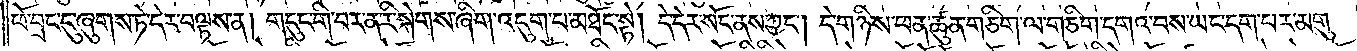ཕོ་བྲང་དུ་ཞུགས་ཏེ་དེར་བལྟས་ན། གདུང་གི་བར་ན་རི་སྐེགས་ཞིག་འདུག་པ་མཐོང་སྟེ། དེ་དེར་སོང་ནས་ཀྱང༌། དེ་གཉིས་ཕན་ཚུན་གཅིག་ལ་གཅིག་དགའ་བས་ཡང་དག་པར་མགུ་
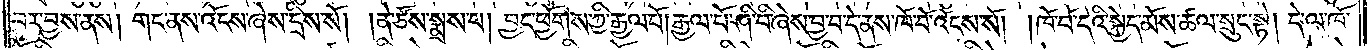བར་བྱས་ནས། གང་ནས་འོངས་ཞེས་དྲིས་སོ། །ནེ་ཙོས་སྨྲས་པ། བྱང་ཕྱོགས་ཀྱི་རྒྱལ་པོ། རྒྱལ་པོ་ཤི་བི་ཞེས་བྱ་བ་དེ་ནས་ཁོ་བོ་འོངས་སོ། །ཁོ་བོ་དེའི་སྐྱེད་མོས་ཚལ་སྲུང་སྟེ། དེ་ལ་ཁོ་
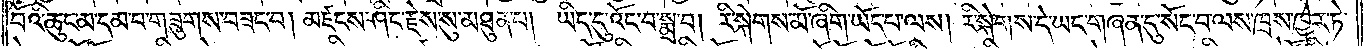བོའི་ཆུང་མ་དམ་པ་གཟུགས་བཟང་བ། མཛངས་ཤིང་རྗེས་སུ་མཐུན་པ། ཡིད་དུ་འོང་བ་སྨྲ་བ། རི་སྐེགས་མོ་ཞིག་ཡོད་པ་ལས། རི་སྐེགས་དེ་ཡང་གཞན་དུ་སོང་བ་ལས་ཁྲས་ཁྱེར་ཏེ་
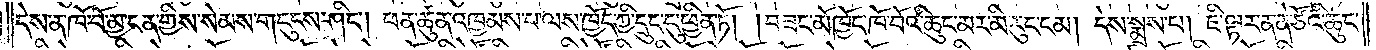དེས་ན་ཁོ་བོ་མྱ་ངན་གྱིས་སེམས་གདུངས་ཤིང༌། ཕན་ཚུན་འཁྱམས་པ་ལས་ཁྱོད་ཀྱི་དྲུང་དུ་ཕྱིན་ཏོ། །བཟང་མོ་ཁྱོད་ཁོ་བོའི་ཆུང་མར་མི་རུང་ངམ། དེས་སྨྲས་པ། ཇི་ལྟར་ན་ནེ་ཙོའི་ཆུང་
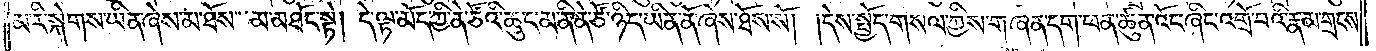མ་རི་སྐེགས་ཡིན་ཞེས་མ་ཐོས་མ་མཐོང་སྟེ། དེ་ལྟ་མོད་ཀྱི་ནེ་ཙོའི་ཆུང་མ་ནི་ནེ་ཙོ་ཉིད་ཡིན་ནོ་ཞེས་ཐོས་སོ། །དེས་སྤྱོད་གསལ་གྱིས་གཞན་དག་ཕན་ཚུན་འོང་ཞིང་འགྲོ་བའི་རྣམ་གྲངས་
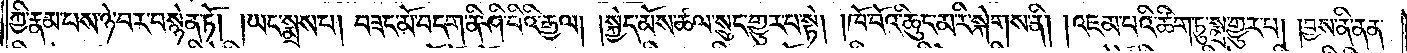ཀྱི་རྣམ་པས་ཉེ་བར་བསྙེན་ཏོ། །ཡང་སྨྲས་པ། བཟང་མོ་བདག་ནི་ཤི་བིའི་རྒྱལ། །སྐྱེད་མོས་ཚལ་སྲུང་གྱུར་པ་སྟེ། །ཁོ་བོའི་ཆུང་མ་རི་སྐེགས་ནི། །འཇམ་པའི་ཚིག་ཏུ་སྨྲ་གྱུར་པ། །བྱས་ནི་ནན་
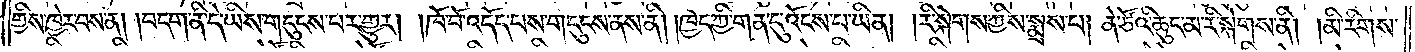གྱིས་ཁྱེར་བས་ན། །བདག་ནི་དེ་ཡིས་གདུངས་པར་གྱུར། །ཁོ་བོ་འདོད་པས་གདུངས་ནས་ནི། །ཁྱོད་ཀྱི་གན་དུ་འོངས་པ་ཡིན། །རི་སྐེགས་ཀྱིས་སྨྲས་པ། ནེ་ཙོའི་ཆུང་མ་རི་སྐེགས་ནི། །མི་རིགས་
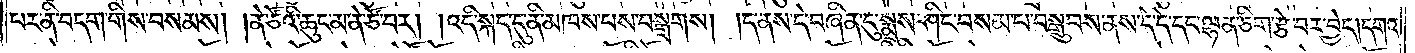པར་ནི་བདག་གིས་བསམས། །ནེ་ཙོའི་ཆུང་མ་ནེ་ཙོ་བར། །འདི་སྐད་དུ་ནི་མཁས་པས་བསྒྲགས། །དེ་ནས་དེ་བཞིན་དུ་སྨྲས་ཤིང་བསམ་པ་བསྒྲུབས་ནས་དེ་དེ་དང་ལྷན་ཅིག་རྩེ་བར་བྱེད། དགའ་
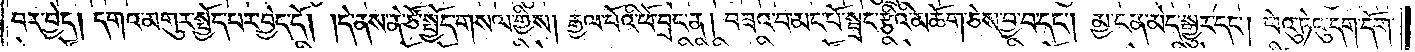བར་བྱེད། དགའ་མགུར་སྤྱོད་པར་བྱེད་དོ། །དེ་ནས་ནེ་ཙོ་སྤྱོད་གསལ་གྱིས། རྒྱལ་པོའི་ཕོ་བྲང་ན། བཟའ་བ་མང་པོ་སྦྲང་རྩིའི་མཆོག་ཅེས་བྱ་བ་དང༌། མྱ་ངན་མེད་སྒྱུར་དང༌། ཕེའུ་ཏེའུ་དག་དོག་
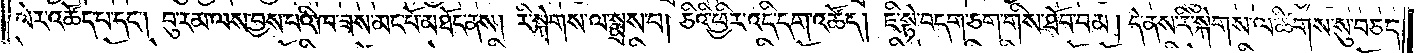ལེར་འཚོད་པ་དང༌། བུ་རམ་ལས་བྱས་པའི་ཁ་ཟས་མང་པོ་མཐོང་ནས། རི་སྐེགས་ལ་སྨྲས་པ། ཅིའི་ཕྱིར་འདི་དག་འཚོད། ཇི་སྟེ་བདག་ཅག་གིས་ཐོབ་བམ། དེ་ནས་རི་སྐེགས་ལ་ཚིགས་སུ་བཅད་
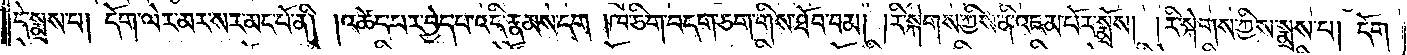དེ་སྨྲས་པ། དོག་ལེར་མར་སར་མང་པོ་ནི། །འཚེད་པར་བྱེད་པ་འདི་རྣམས་དག །ཁ་ཅིག་བདག་ཅག་གིས་ཐོབ་བམ། །རི་སྐེགས་ཀྱིས་ནི་འཇམ་པོར་སྨྲོས། །རི་སྐེགས་ཀྱིས་སྨྲས་པ། དོག་
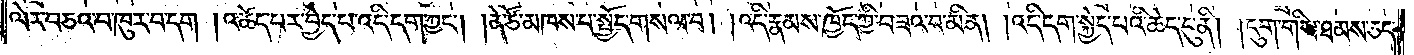ལེར་བཅའ་བ་ཁུར་བ་དག །འཚེད་པར་བྱེད་པ་འདི་དག་ཀྱང༌། །ནེ་ཙོ་མཁས་པ་སྤྱོད་གསལ་བ། །འདི་རྣམས་ཁྱོད་ཀྱི་བཟའ་བ་མིན། །འདི་དག་སྐྱེད་པའི་ཆེད་དུ་ནི། །དུག་གིས་ཐམས་ཅད་
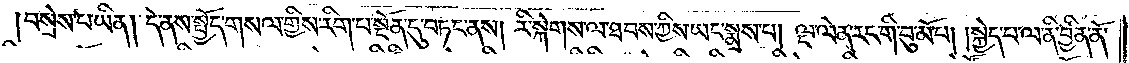བསྲེས་པ་ཡིན། དེ་ནས་སྤྱོད་གསལ་གྱིས་རིག་པ་སྔོན་དུ་བཏང་ནས། རི་སྐེགས་ལ་ཐབས་ཀྱིས་ཡང་སྨྲས་པ། ལྔ་ལེན་རང་གི་བུ་མོ་པ། །སྐྱེད་པ་ལ་ནི་བྱིན་ནོ་
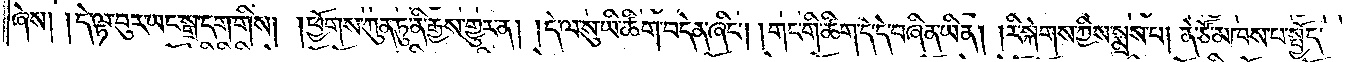ཞེས། །དེ་ལྟ་བུར་ཡང་སྒྲ་དག་གིས། །ཕྱོགས་ཀུན་ཏུ་ནི་རྒྱས་གྱུར་ན། །དེ་ལ་སུ་ཡི་ཚིག་བདེན་ཞིང༌། །གང་གི་ཚིག་དེ་དེ་བཞིན་ཡིན། །རི་སྐེགས་ཀྱིས་སྨྲས་པ། ནེ་ཙོ་མཁས་པ་སྤྱོད་
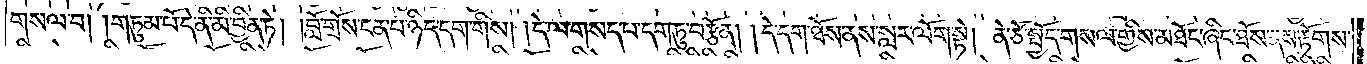གསལ་བ། །གཏུམ་པོ་དེ་ནི་མི་བྱིན་ཏེ། །བློ་གྲོས་ངན་པ་ཉིད་དག་གིས། །དེ་ལ་གསད་པ་དག་ཏུ་བརྩོན། །དེ་དག་ཐོས་ནས་སླར་ལོག་སྟེ། ནེ་ཙོ་སྤྱོད་གསལ་གྱིས་མཐོང་ཞིང་ཐོས་ནས་རྟོགས་
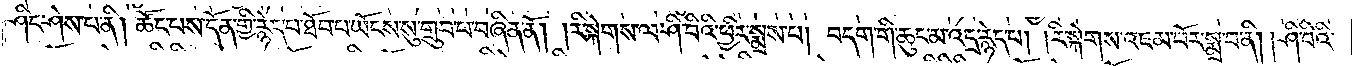ཤིང་ཤེས་པ་ནི། ཚོང་པས་དོན་གྱི་རྙེད་པ་ཐོབ་པ་ཡོངས་སུ་གྲུབ་པ་བཞིན་ནོ། །རི་སྐེགས་ལ་ཤི་བིའི་ཕྱིར་སྨྲས་པ། བདག་གི་ཆུང་མ་འདྲ་རྙེད་པ། །རི་སྐེགས་འཇམ་པོར་སྨྲ་བ་ནི། །ཤི་བིའི་
